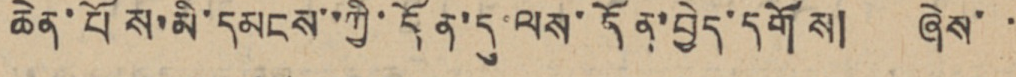ཆེན་པོས་མི་དམངས་ཀྱི་དོན་དུ་ལས་དོན་བྱེད་དགོས། ཞེས་ ་
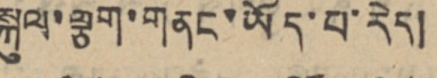སྐུལ་ལྕག་གནང་ཡོད་པ་རེད།
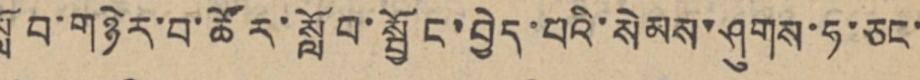སློབ་གཉེར་བ་ཚོར་སློབ་སྦྱོང་བྱེད་པའི་སེམས་ཤུགས་ཧ་ཅང་
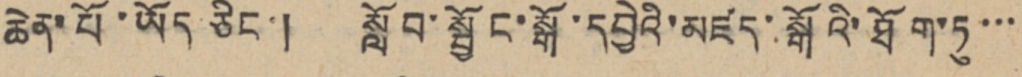ཆེན་པོ་ཡོད ཅིང་། སློབ་སྦྱོང་སྒོ་དབྱེའི་མཛད་སྒོའི་ཐོག་ཏུ་་་
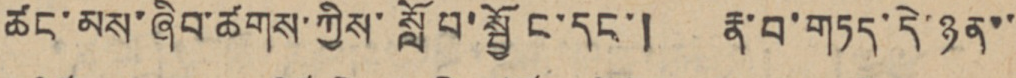ཚང་མས་ཞིབ་ཚགས་ཀྱིས་སློབ་སྦྱོང་དང་། རྣ་བ་གཏད་དེ་ཉན་་
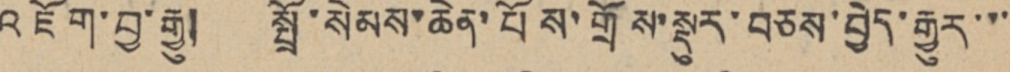འཇོག་བྱ་རྒྱུ། སྤྲོ་སེམས་ཆེན་པོས་གྲོས་སྡུར་བཅས་བྱེད་རྒྱུར་་་
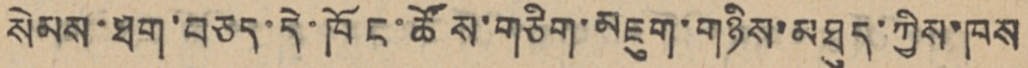སེམས་ཐག་བཅད་དེ་ཁོང་ཚོས་གཅིག་མཇུག་གཉིས་མཐུད་ཀྱིས་ཁས
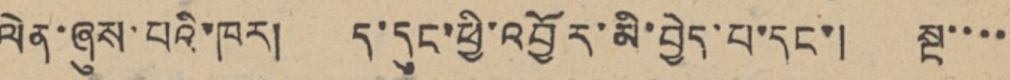ལེན་ཞུས་པའི་ཁར། ད་དུང་ཕྱི་འབྱོར་མི་བྱེད་པ་དང་། སྔ་་་་
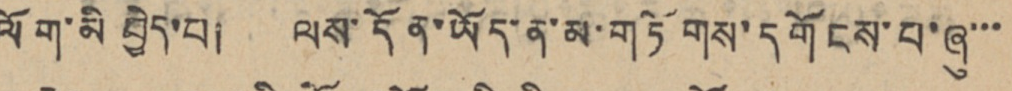ལོག་མི བྱེད་པ། ལས་དོན་ཡོད་ན་མ་གཏོགས་དགོངས་པ་ཞུ་་་
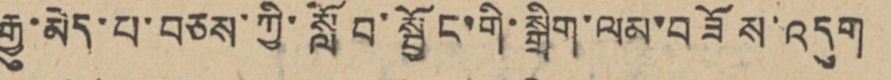རྒྱུ་མེད་པ་བཅས་ཀྱི་སློབ་སྦྱོང་གི་སྒྲིག་ལམ་བཟོས་འདུག
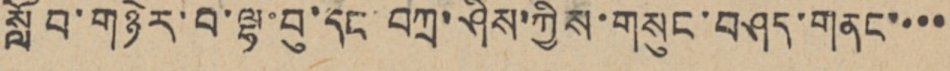སློབ་གཉེར་བ་ལྷ་བུ་དང བཀྲ་ཤིས་ཀྱིས་གསུང་བཤད་གནང་་་་
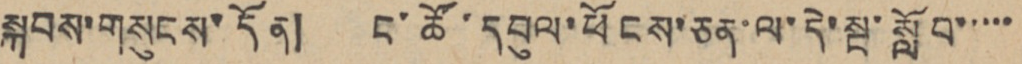སྐབས་གསུངས་དོན། ང་ཚོ་དབུལ་ཕོངས་ཅན་ལ་དེ་སྔ་སློབ་་་་་
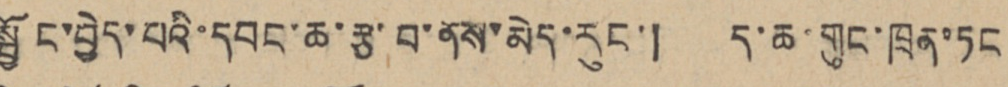སྦྱོང་བྱེད་པའི་དབང་ཆ་རྩ་བ་ནས་མེད་རུང་། ད་ཆ་གུང་ཁྲན་ཏང
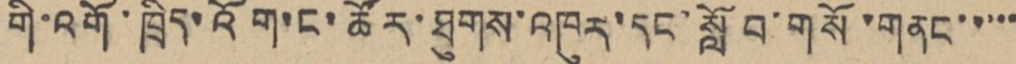གི་འགོ་ཁྲིད་འོག་ང་ཚོར་ཐུགས་འཁུར་དང་སློབ་གསོ་གནང་་་་་
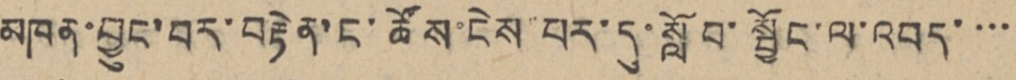མཁན་བྱུང་བར་བརྟེན་ང་ཚོས་ངེས་པར་དུ་སློབ་སྦྱོང་ལ་འབད་་་་
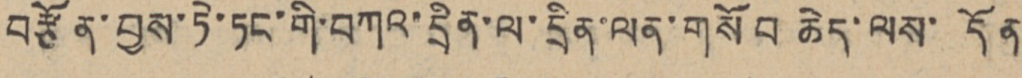བརྩོན་བྱས་ཏེ་ཏང་གི་བཀའ་དྲིན་ལ་དྲིན་ལན་གསོབ ཆེད་ལས་དོན
